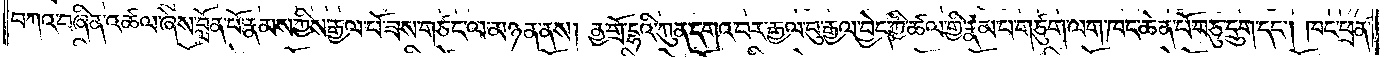བཀའ་བཞིན་འཚལ་ཞེས་བློན་པོ་རྣམས་ཀྱིས་རྒྱལ་པོ་ཟས་གཙང་ལ་མཉན་ནས། ནྱ་གྲོ་དྷའི་ཀུན་དགའ་བར་རྒྱལ་བུ་རྒྱལ་བྱེད་ཀྱི་ཚལ་གྱི་རྣམ་པ་གཙུག་ལག་ཁང་ཆེན་པོ་བཅུ་དྲུག་དང༌། ཁང་ཕྲན་
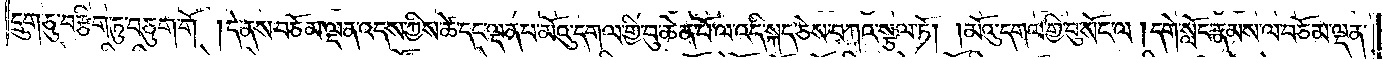དྲུག་ཅུ་བརྩིག་ཏུ་བཅུག་གོ །དེ་ནས་བཅོམ་ལྡན་འདས་ཀྱིས་ཚེ་དང་ལྡན་པ་མོའུ་དགལ་གྱི་བུ་ཆེན་པོ་ལ་འདི་སྐད་ཅེས་བཀའ་སྩལ་ཏོ། །མོའུ་དགལ་གྱི་བུ་སོང་ལ་།དགེ་སློང་རྣམས་ལ་བཅོམ་ལྡན་
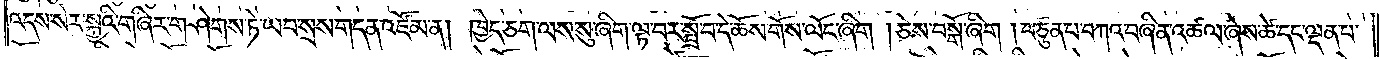འདས་སེར་སྐྱའི་གཞིར་གཤེགས་ཏེ་ཡབ་སྲས་གདན་འཛོམ་ན། ཁྱེད་ཅག་ལས་སུ་ཞིག་ལྟ་བར་སྤྲོ་བ་དེ་ཆོས་གོས་ལོང་ཞིག །ཅེས་བསྒོ་ཞིག །བཙུན་པ་བཀའ་བཞིན་འཚལ་ཞེས་ཚེ་དང་ལྡན་པ་
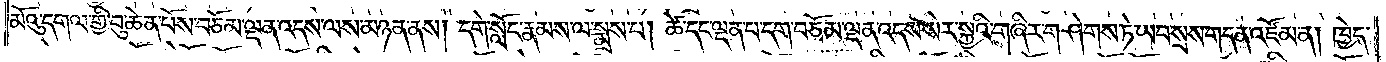མོའུ་དགལ་གྱི་བུ་ཆེན་པོས་བཅོམ་ལྡན་འདས་ལས་མཉན་ནས། དགེ་སློང་རྣམས་ལ་སྨྲས་པ། ཚེ་དང་ལྡན་པ་དག་བཅོམ་ལྡན་འདས་སེར་སྐྱའི་གཞིར་གཤེགས་ཏེ་ཡབ་སྲས་གདན་འཛོམ་ན། ཁྱེད་
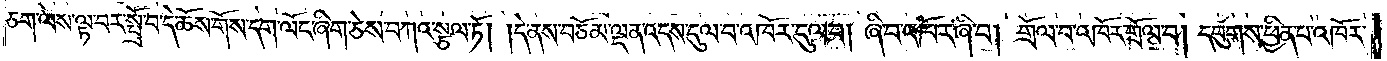ཅག་ལས་ལྟ་བར་སྤྲོ་བ་དེ་ཆོས་གོས་དག་ལོང་ཞིག་ཅེས་བཀའ་སྩལ་ཏོ། །དེ་ནས་བཅོམ་ལྡན་འདས་དུལ་བ་འཁོར་དུལ་བ། ཞི་བ་འཁོར་ཞི་བ། གྲོལ་བ་འཁོར་གྲོལ་བ། དབུགས་ཕྱིན་པ་འཁོར་
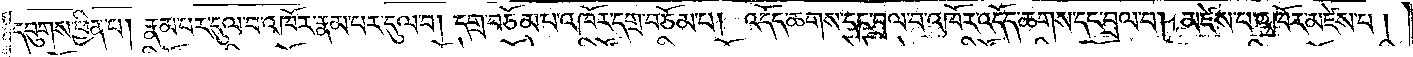དབུགས་ཕྱིན་པ། རྣམ་པར་དུལ་བ་འཁོར་རྣམ་པར་དུལ་བ། དགྲ་བཅོམ་པ་འཁོར་དགྲ་བཅོམ་པ། འདོད་ཆགས་དང་བྲལ་བ་འཁོར་འདོད་ཆགས་དང་བྲལ་བ། མཛེས་པ་འཁོར་མཛེས་པ་།
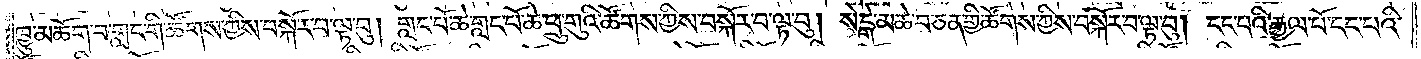ཁྱུ་མཆོག་བ་གླང་གི་ཚོགས་ཀྱིས་བསྐོར་བ་ལྟ་བུ། གླང་པོ་ཆེ་གླང་པོ་ཆེ་ཕྲུ་གུའི་ཚོགས་ཀྱིས་བསྐོར་བ་ལྟ་བུ། སེངྒེ་མཆེ་བ་ཅན་གྱི་ཚོགས་ཀྱིས་བསྐོར་བ་ལྟ་བུ། ངང་པའི་རྒྱལ་པོ་ངང་པའི་
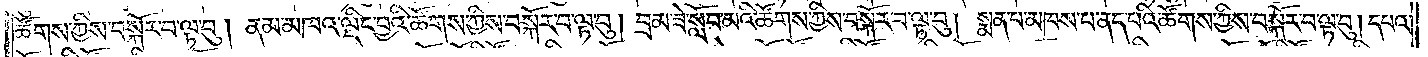ཚོགས་ཀྱིས་བསྐོར་བ་ལྟ་བུ། ནམ་མཁའ་ལྡིང་བྱའི་ཚོགས་ཀྱིས་བསྐོར་བ་ལྟ་བུ། བྲམ་ཟེ་སློབ་མའི་ཚོགས་ཀྱིས་བསྐོར་བ་ལྟ་བུ། སྨན་པ་མཁས་པ་ནད་པའི་ཚོགས་ཀྱིས་བསྐོར་བ་ལྟ་བུ། དཔའ་
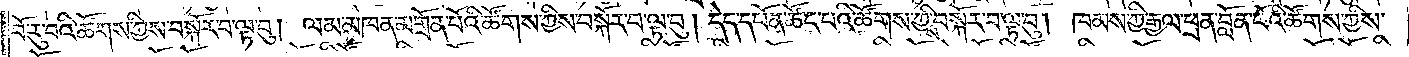བོ་རུ་བའི་ཚོགས་ཀྱིས་བསྐོར་བ་ལྟ་བུ། ལམ་མཁན་མགྲོན་པོའི་ཚོགས་ཀྱིས་བསྐོར་བ་ལྟ་བུ། དེད་དཔོན་ཚོང་པའི་ཚོགས་ཀྱིས་བསྐོར་བ་ལྟ་བུ། ཁམས་ཀྱི་རྒྱལ་ཕྲན་བློན་པོའི་ཚོགས་ཀྱིས་
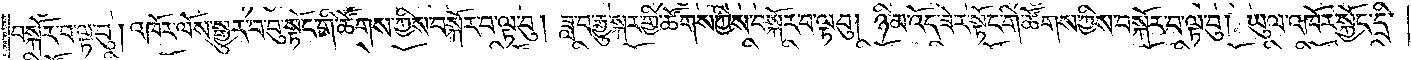བསྐོར་བ་ལྟ་བུ། འཁོར་ལོས་སྒྱུར་བ་བུ་སྟོང་གི་ཚོགས་ཀྱིས་བསྐོར་བ་ལྟ་བུ། ཟླ་བ་རྒྱུ་སྐར་གྱི་ཚོགས་ཀྱིས་བསྐོར་བ་ལྟ་བུ། ཉི་མ་འོད་ཟེར་སྟོང་གི་ཚོགས་ཀྱིས་བསྐོར་བ་ལྟ་བུ། ཡུལ་འཁོར་སྐྱོང་དྲི་
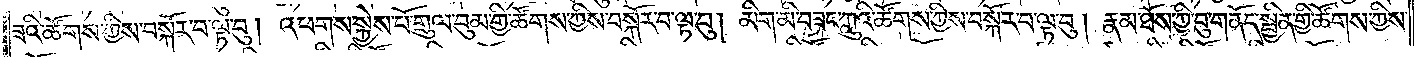ཟའི་ཚོགས་ཀྱིས་བསྐོར་བ་ལྟ་བུ། འཕགས་སྐྱེས་པོ་གྲུལ་བུམ་གྱི་ཚོགས་ཀྱིས་བསྐོར་བ་ལྟ་བུ། མིག་མི་བཟང་ཀླུའི་ཚོགས་ཀྱིས་བསྐོར་བ་ལྟ་བུ། རྣམ་ཐོས་ཀྱི་བུ་གནོད་སྦྱིན་གྱི་ཚོགས་ཀྱིས་
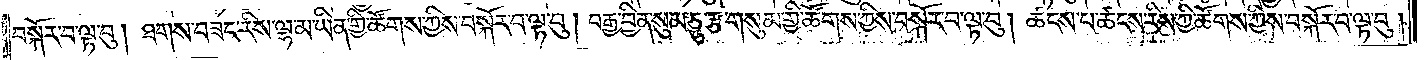བསྐོར་བ་ལྟ་བུ། ཐགས་བཟང་རིས་ལྷ་མ་ཡིན་གྱི་ཚོགས་ཀྱིས་བསྐོར་བ་ལྟ་བུ། བརྒྱ་བྱིན་སུམ་ཅུ་རྩ་གསུམ་གྱི་ཚོགས་ཀྱིས་བསྐོར་བ་ལྟ་བུ། ཚངས་པ་ཚངས་རིས་ཀྱི་ཚོགས་ཀྱིས་བསྐོར་བ་ལྟ་བུ་།
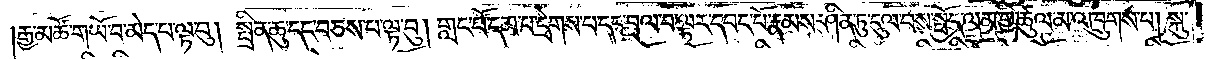རྒྱ་མཚོ་གཡོ་བ་མེད་པ་ལྟ་བུ། སྤྲིན་ཆུ་དང་བཅས་པ་ལྟ་བུ། གླང་པོ་དམ་པ་དྲེགས་པ་དང་བྲལ་བ་ལྟར་དབང་པོ་རྣམས་ཤིན་ཏུ་དུལ་བས་སྤྱོད་ལམ་གྱི་ཚུལ་མ་འཁྲུགས་པ། སྐུ་
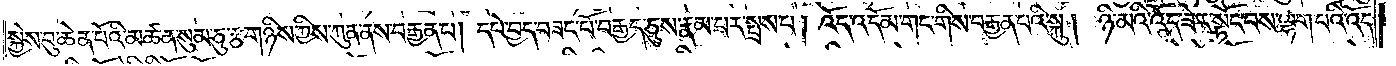སྐྱེས་བུ་ཆེན་པོའི་མཚན་སུམ་ཅུ་རྩ་གཉིས་ཀྱིས་ཀུན་ནས་བརྒྱན་པ། དཔེ་བྱད་བཟང་པོ་བརྒྱད་ཅུས་རྣམ་པར་སྤྲས་པ། འོད་འདོམ་གང་གིས་བརྒྱན་པའི་སྐུ། ཉི་མའི་འོད་ཟེར་སྟོང་བས་ལྷག་པའི་འོད་
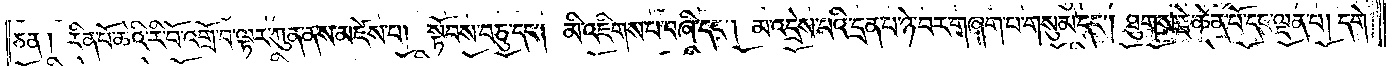ཅན། རིན་པོ་ཆེའི་རི་བོ་འགྲོ་བ་ལྟར་ཀུན་ནས་མཛེས་པ། སྟོབས་བཅུ་དང༌། མི་འཇིགས་པ་བཞི་དང༌། མ་འདྲེས་པའི་དྲན་པ་ཉེ་བར་གཞག་པ་གསུམ་དང༌། ཐུགས་རྗེ་ཆེན་པོ་དང་ལྡན་པ། དགེ་
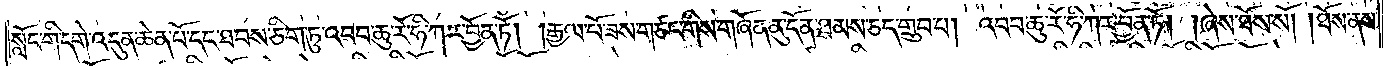སློང་གི་དགེ་འདུན་ཆེན་པོ་དང་ཐབས་ཅིག་ཏུ་འབབ་ཆུ་རོ་ཧི་ཀར་བྱོན་ཏོ། །རྒྱལ་པོ་ཟས་གཙང་གིས་གཞོན་ནུ་དོན་ཐམས་ཅད་གྲུབ་པ། འབབ་ཆུ་རོ་ཧི་ཀར་བྱོན་ཏོ། །ཞེས་ཐོས་སོ། །ཐོས་ནས་
